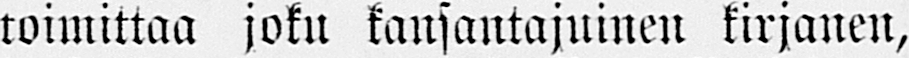toimittaa joku kansantajuinen kirjanen,
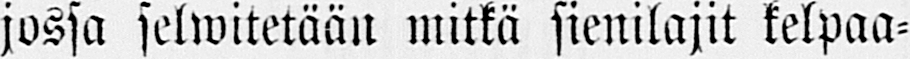jossa selwitetään mitkä sienilajit kelpaa-
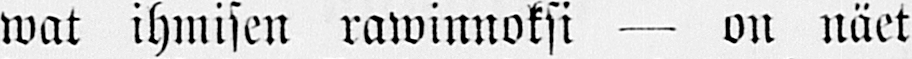wat ihmisen rawinnoksi — on näet
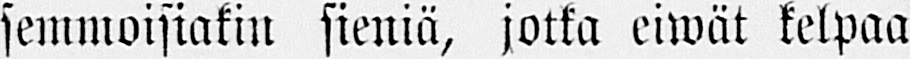semmoisiakin sieniä, jotka eiwät kelpaa
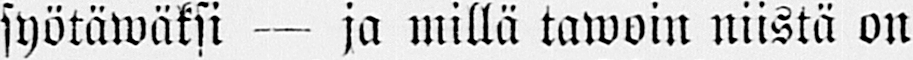syötäwäksi — ja millä tawoin niistä on
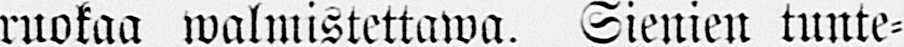ruokaa walmistettawa. Sienien tunte-
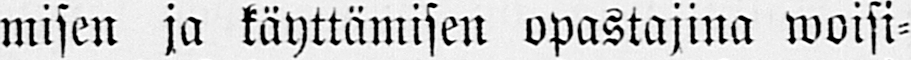misen ja käyttämisen opastajina woisi-
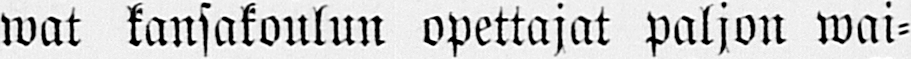wat kansakoulun opettajat paljon wai-
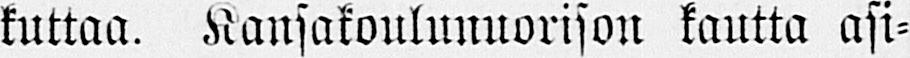kuttaa. Kansakoulunuorison kautta asi-
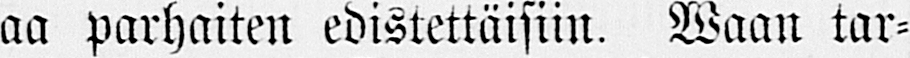aa parhaiten edistettäisiin. Waan tar-
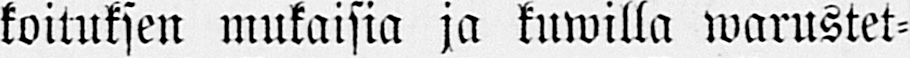koituksen mukaisia ja kuwilla warustet-
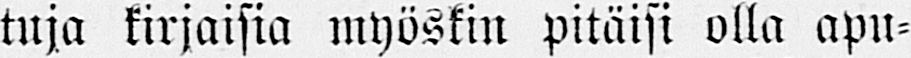tuja kirjaisia myöskin pitäisi olla apu-
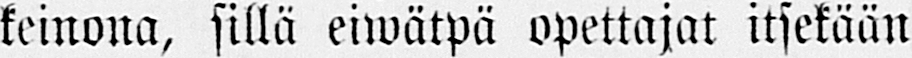keinona, sillä eiwätpä opettajat itsekään
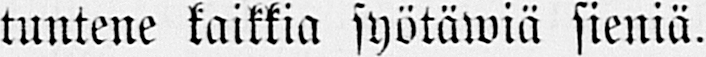tuntene kaikkia syötäwiä sieniä.
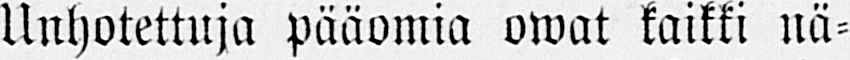Unhotettuja pääomia owat kaikki nä-
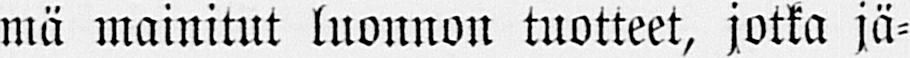illä mainitut luonnon tuotteet, jotka jä-
